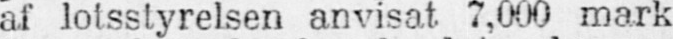af lotsstyrelsen anvisat 7,000 mark
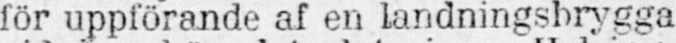för uppförande af en landningsbrygga
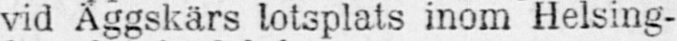vid Äggskärs lotsplats inom Helsing-
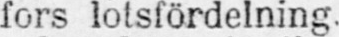fors lotsfördelning.
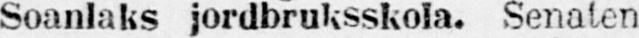Soanlaks jordbruksskola. Senaten
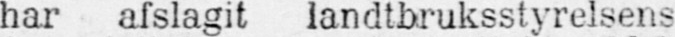har afslagit landtbruksstyrelsens
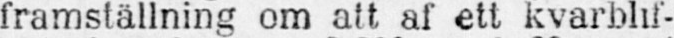framställning om att. af ett kvarbhf-
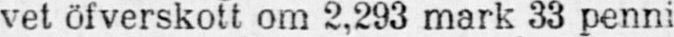vet öfverskott om 2,293 mark 33 penni
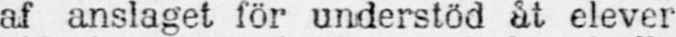af anslaget för understöd åt elever
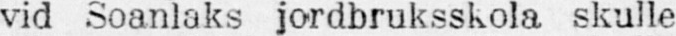vid Soanlaks jordbruksskola skulle
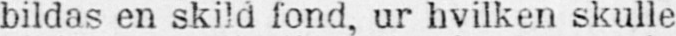bildas en skild fond, ur hvilken skulle
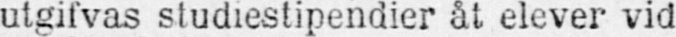utgifvas studiestipendier åt elever vid
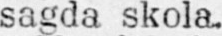sagda skola.
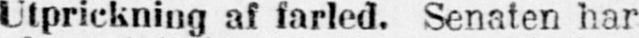Utprickning af farled. Senaten har
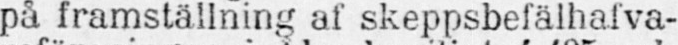på framställning af skeppsbefälhafva-
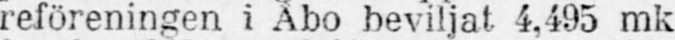reföreningen i Åbo beviljat 4,495 mk
